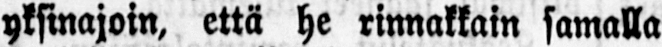yksinajoin, että he rinnakkain samalla
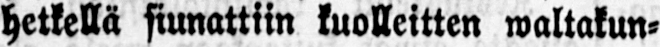hetkellä siunattiin kuolleitten waltakun-
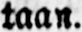taan.
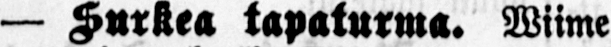— Surkea tapaturma. Wiime
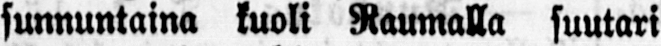sunnuntaina kuoli Raumalla suutari
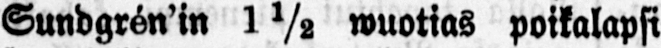Sundgrén'in 1½ wuotias poikalapsi
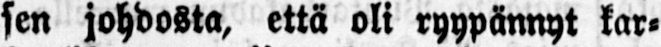sen johdosta, että oli ryypännyt kar-
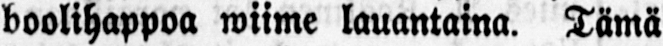boolihappoa wiime lauantaina. Tämä
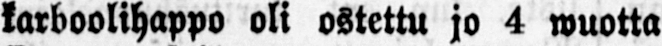karboolihappo oli ostettu jo 4 wuotta
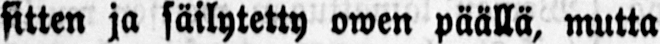sitten ja säilytetty owen päällä, mutta
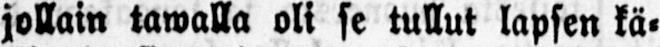jollain tawalla oli se tullut lapsen kä-
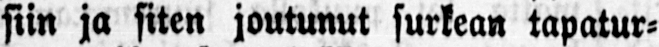siin ja siten joutunut surkean tapatur-
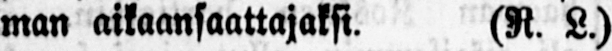man aikaansaattajaksi. (R. L.)
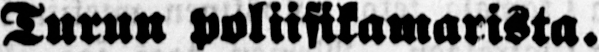Turun poliisikamarista.
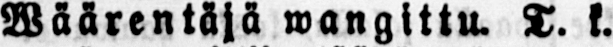Wäärentäjä wangittu. T. k.
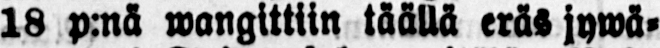18 p.nä wangittiin täällä eräs jywä-
